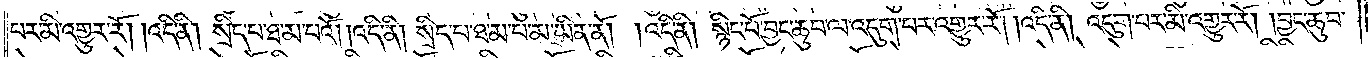པར་མི་འགྱུར་རོ། །འདི་ནི། སྲིད་པ་ཐ་མ་པའོ། །འདི་ནི། སྲིད་པ་ཐ་མ་པ་མ་ཡིན་ནོ། །འདི་ནི། སྙིང་པོ་བྱང་ཆུབ་ལ་འདུག་པར་འགྱུར་རོ། །འདི་ནི། འདུག་པར་མི་འགྱུར་རོ། །བྱང་ཆུབ་
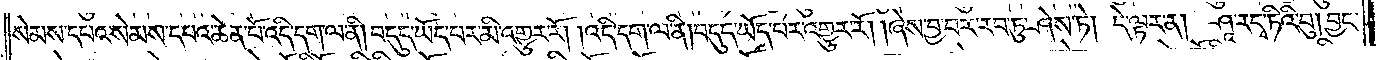སེམས་དཔའ་སེམས་དཔའ་ཆེན་པོ་འདི་དག་ལ་ནི། བདུད་ཡོད་པར་མི་འགྱུར་རོ། །འདི་དག་ལ་ནི། བདུད་ཡོད་པར་འགྱུར་རོ། །ཞེས་བྱ་བར་རབ་ཏུ་ཤེས་ཏེ། དེ་ལྟར་ན། ཤཱ་རདྭ་ཏིའི་བུ། བྱང་
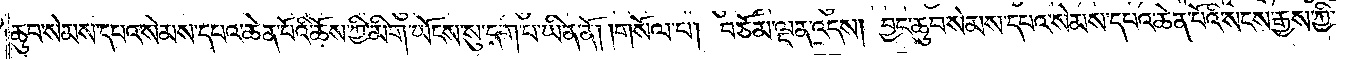ཆུབ་སེམས་དཔའ་སེམས་དཔའ་ཆེན་པོའི་ཆོས་ཀྱི་མིག་ཡོངས་སུ་དག་པ་ཡིན་ནོ། །གསོལ་པ། བཅོམ་ལྡན་འདས། བྱང་ཆུབ་སེམས་དཔའ་སེམས་དཔའ་ཆེན་པོའི་སངས་རྒྱས་ཀྱི་
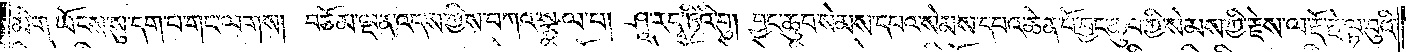མིག་ཡོངས་སུ་དག་པ་གང་ལགས། བཅོམ་ལྡན་འདས་ཀྱིས་བཀའ་སྩལ་པ། ཤཱ་ར་དྭ་ཏིའི་བུ། བྱང་ཆུབ་སེམས་དཔའ་སེམས་དཔའ་ཆེན་པོ་བྱང་ཆུབ་ཀྱི་སེམས་ཀྱི་རྗེས་ལ་རྡོ་རྗེ་ལྟ་བུའི་
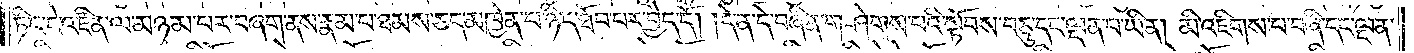ཏིང་ངེ་འཛིན་ལ་མཉམ་པར་བཞག་ནས་རྣམ་པ་ཐམས་ཅད་མཁྱེན་པ་ཉིད་ཐོབ་པར་བྱེད་དོ། །དེ་ན་དེ་བཞིན་གཤེགས་པའི་སྟོབས་བཅུ་དང་ལྡན་པ་ཡིན། མི་འཇིགས་པ་བཞི་དང་ལྡན་
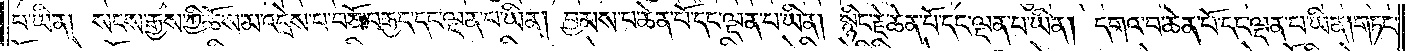པ་ཡིན། སངས་རྒྱས་ཀྱི་ཆོས་མ་འདྲེས་པ་བཅོ་བརྒྱད་དང་ལྡན་པ་ཡིན། བྱམས་པ་ཆེན་པོ་དང་ལྡན་པ་ཡིན། སྙིང་རྗེ་ཆེན་པོ་དང་ལྡན་པ་ཡིན། དགའ་བ་ཆེན་པོ་དང་ལྡན་པ་ཡིན། གཏང་
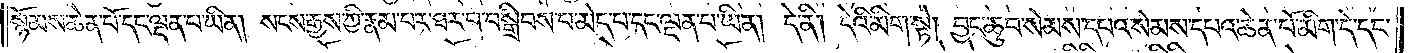སྙོམས་ཆེན་པོ་དང་ལྡན་པ་ཡིན། སངས་རྒྱས་ཀྱི་རྣམ་པར་ཐར་པ་བསྒྲིབས་པ་མེད་པ་དང་ལྡན་པ་ཡིན། དེ་ནི། དེའི་མིག་སྟེ། བྱང་ཆུབ་སེམས་དཔའ་སེམས་དཔའ་ཆེན་པོ་མིག་དེ་དང་
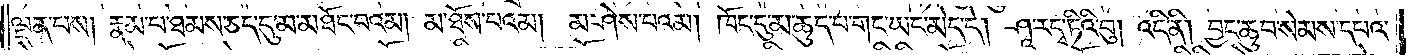ལྡན་པས། རྣམ་པ་ཐམས་ཅད་དུ་མ་མཐོང་བའམ། མ་ཐོས་པའམ། མ་ཤེས་པའམ། ཁོང་དུ་མ་ཆུད་པ་གང་ཡང་མེད་དེ། ཤཱ་ར་དྭ་ཏིའི་བུ། འདི་ནི། བྱང་ཆུབ་སེམས་དཔའ་
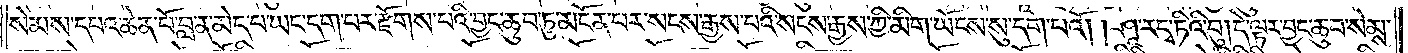སེམས་དཔའ་ཆེན་པོ་བླ་ན་མེད་པ་ཡང་དག་པར་རྫོགས་པའི་བྱང་ཆུབ་ཏུ་མངོན་པར་སངས་རྒྱས་པའི་སངས་རྒྱས་ཀྱི་མིག་ཡོངས་སུ་དག་པའོ། །ཤཱ་ར་དྭ་ཏིའི་བུ། དེ་ལྟར་བྱང་ཆུབ་སེམས་
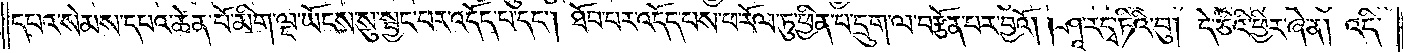དཔའ་སེམས་དཔའ་ཆེན་པོ་མིག་ལྔ་ཡོངས་སུ་སྦྱང་པར་འདོད་པ་དང༌། ཐོབ་པར་འདོད་པས་ཕ་རོལ་ཏུ་ཕྱིན་པ་དྲུག་ལ་བརྩོན་པར་བྱའོ། །ཤཱ་ར་དྭ་ཏིའི་བུ། དེ་ཅིའི་ཕྱིར་ཞེ་ན། འདི་
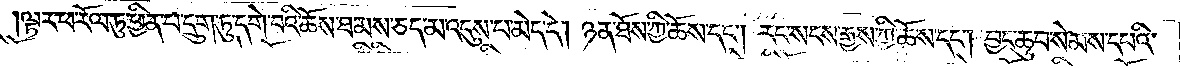ལྟར་ཕ་རོལ་ཏུ་ཕྱིན་པ་དྲུག་ཏུ་དགེ་བའི་ཆོས་ཐམས་ཅད་མ་འདུས་པ་མེད་དེ། ཉན་ཐོས་ཀྱི་ཆོས་དང༌། རང་སངས་རྒྱས་ཀྱི་ཆོས་དང༌། བྱང་ཆུབ་སེམས་དཔའི་
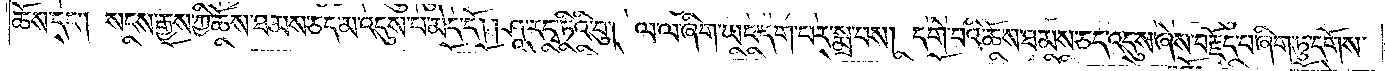ཆོས་དང༌། སངས་རྒྱས་ཀྱི་ཆོས་ཐམས་ཅད་མ་འདུས་པ་མེད་དོ། །ཤཱ་ར་དྭ་ཏིའི་བུ། ལ་ལ་ཞིག་ཡང་དག་པར་སྨྲ་བས། དགེ་བའི་ཆོས་ཐམས་ཅད་འདུས་ཞེས་བརྗོད་པ་ཞིག་ཏུ་དགོས་
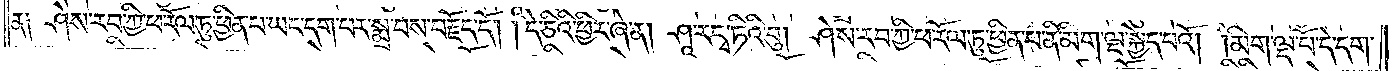ན༑ ཤེས་རབ་ཀྱི་ཕ་རོལ་ཏུ་ཕྱིན་པ་ཡང་དག་པར་སྨྲ་བས་བརྗོད་དོ། །དེ་ཅིའི་ཕྱིར་ཞེ་ན། ཤཱ་ར་དྭ་ཏིའི་བུ། ཤེས་རབ་ཀྱི་ཕ་རོལ་ཏུ་ཕྱིན་པ་ནི་མིག་ལྔ་སྐྱེད་པའོ། །མིག་ལྔ་པོ་དེ་དག་
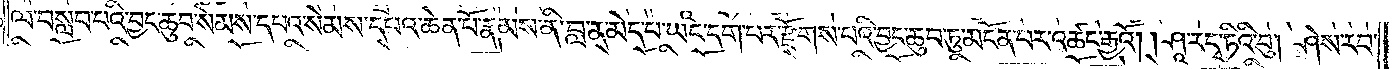ལ་བསླབ་པའི་བྱང་ཆུབ་སེམས་དཔའ་སེམས་དཔའ་ཆེན་པོ་རྣམས་ནི་བླ་ན་མེད་པ་ཡང་དག་པར་རྫོགས་པའི་བྱང་ཆུབ་ཏུ་མངོན་པར་འཚང་རྒྱའོ། །ཤཱ་ར་དྭ་ཏིའི་བུ། ཤེས་རབ་
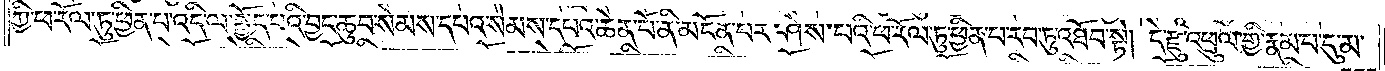ཀྱི་ཕ་རོལ་ཏུ་ཕྱིན་པ་འདི་ལ་སྤྱོད་པའི་བྱང་ཆུབ་སེམས་དཔའ་སེམས་དཔའ་ཆེན་པོ་ནི་མངོན་པར་ཤེས་པའི་ཕ་རོལ་ཏུ་ཕྱིན་པ་རབ་ཏུ་འཐོབ་སྟེ། དེ་རྫུ་འཕྲུལ་གྱི་རྣམ་པ་དུ་མ་
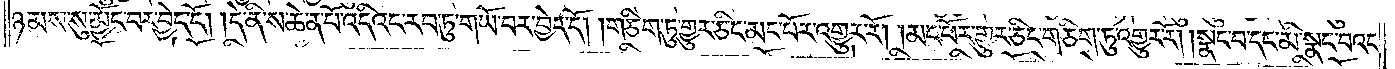ཉམས་སུ་མྱོང་བར་བྱེད་དོ། །དེ་ནི་ས་ཆེན་པོ་འདིའང་རབ་ཏུ་གཡོ་བར་བྱེད་དོ། །གཅིག་ཏུ་གྱུར་ཅིང་མང་པོར་འགྱུར་རོ། །མང་པོར་གྱུར་ཅིང་གཅིག་ཏུ་འགྱུར་རོ། །སྣང་བ་དང་མི་སྣང་བའང་
